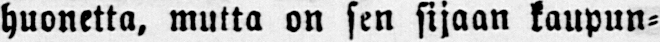huonetta, mutta on sen sijaan kaupun-
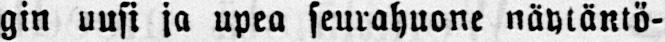gin uusi ja upea seurahuone näytäntö-
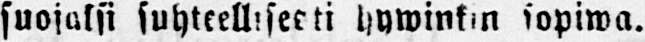suojaksi suhteelliseeti hywinkin sopiwa.
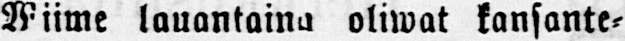Wiime lauantaina oliwat kansante-
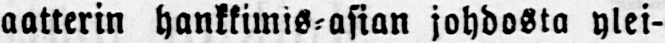aatterin hankkimis-asian johdosta ylei-
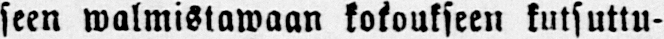seen walmistawaan kokoukseen kutsuttu-
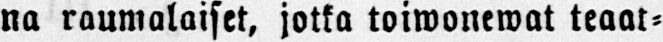na raumalaiset, jotka toiwonewat teaat-
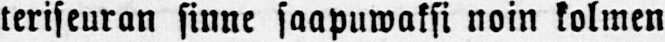teriseuran sinne saapuwaksi noin kolmen
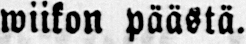wiikon päästä.
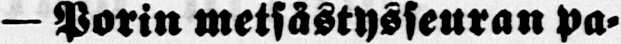— Porin metsästysseuran pa-
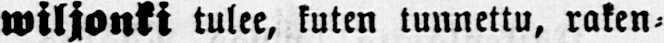wiljonki tulee, kuten tunnettu, raken-
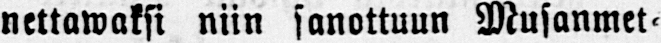nettawaksi niin sanottuun Musanmet-
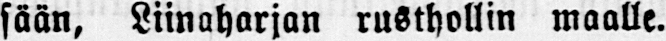sään, Liinaharjan rusthollin maalle.
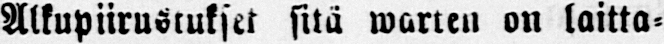Alkupiirustukset sitä warten on laitta-
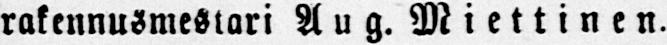rakennusmestari Aug. Miettinen.
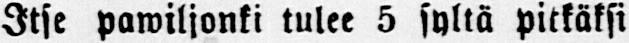Itse pawiljonki tulee 5 syltä pitkäksi
